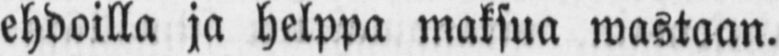ehdoilla ja helppa maksua wastaan.
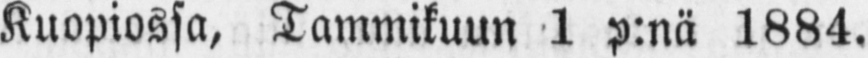Kuopiossa, Tammikuun 1 p:nä 1884.
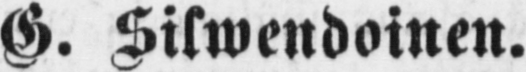G. Silwendoinen.
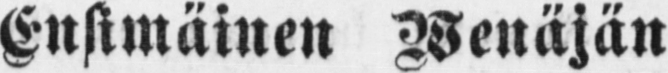Ensimäinen Wenäjän
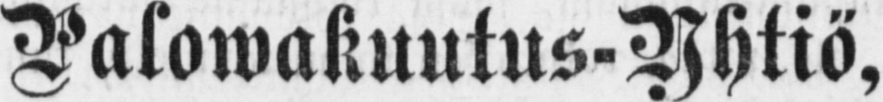Palowakuutus-Yhtiö,
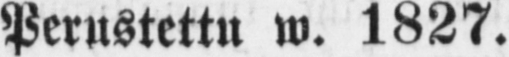Perustettu w. 1827.
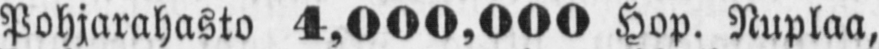Pohjarahasto 4,000,000 Hop. Nuplaa,
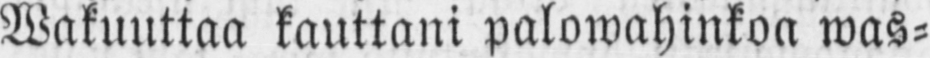Wakuuttaa kauttani palowahinkoa was-
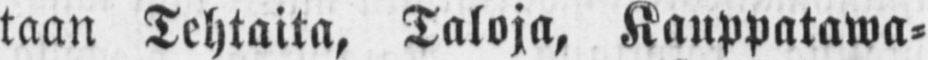taan Tehtaita, Taloja, Kauppatawa-
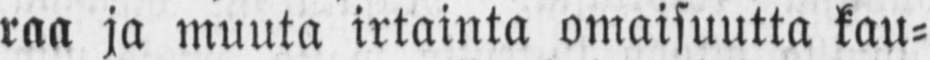raa ja muuta irtainta omaisuutta kau-
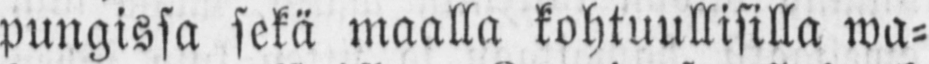pungissa sekä maalla kohtuullisilla wa-
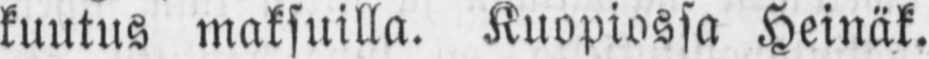kuutus maksuilla. Kuopiossa Heinäk.
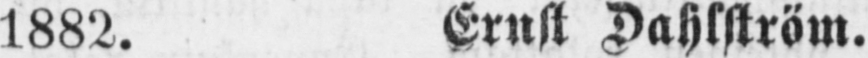1882. Ernst Dahlström.
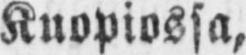Kuopiossa,
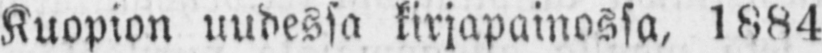Kuopion uudessa kirjapainossa, 1884.
